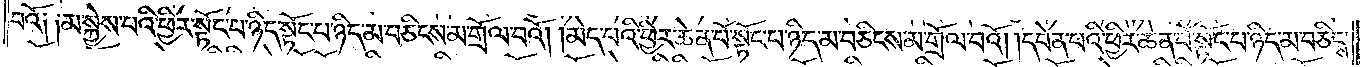བའོ༑ ༑མ་སྐྱེས་པའི་ཕྱིར་སྟོང་པ་ཉིད་སྟོང་པ་ཉིད་མ་བཅིངས་མ་གྲོལ་བའོ། །མེད་པའི་ཕྱིར་ཆེན་པོ་སྟོང་པ་ཉིད་མ་བཅིངས་མ་གྲོལ་བའོ། །དབེན་པའི་ཕྱིར་ཆེན་པོ་སྟོང་པ་ཉིད་མ་བཅིངས་
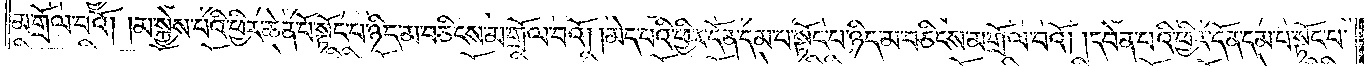མ་གྲོལ་བའོ། །མ་སྐྱེས་པའི་ཕྱིར་ཆེན་པོ་སྟོང་པ་ཉིད་མ་བཅིངས་མ་གྲོལ་བའོ། །མེད་པའི་ཕྱིར་དོན་དམ་པ་སྟོང་པ་ཉིད་མ་བཅིངས་མ་གྲོལ་བའོ། །དབེན་པའི་ཕྱིར་དོན་དམ་པ་སྟོང་པ་
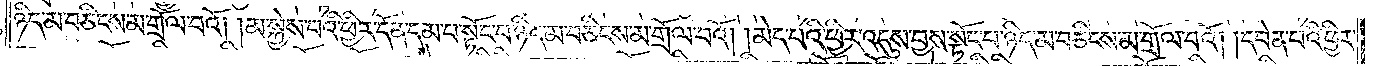ཉིད་མ་བཅིངས་མ་གྲོལ་བའོ། །མ་སྐྱེས་པའི་ཕྱིར་དོན་དམ་པ་སྟོང་པ་ཉིད་མ་བཅིངས་མ་གྲོལ་བའོ། མེད་པའི་ཕྱིར་འདུས་བྱས་སྟོང་པ་ཉིད་མ་བཅིངས་མ་གྲོལ་བའོ། །དབེན་པའི་ཕྱིར་
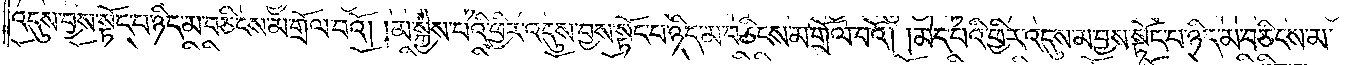འདུས་བྱས་སྟོང་པ་ཉིད་མ་བཅིངས་མ་གྲོལ་བའོ། །མ་སྐྱེས་པའི་ཕྱིར་འདུས་བྱས་སྟོང་པ་ཉིད་མ་བཅིངས་མ་གྲོལ་བའོ། །མེད་པའི་ཕྱིར་འདུས་མ་བྱས་སྟོང་པ་ཉིད་མ་བཅིངས་མ་
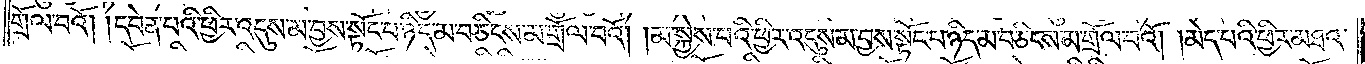གྲོལ་བའོ། །དབེན་པའི་ཕྱིར་འདུས་མ་བྱས་སྟོང་པ་ཉིད་མ་བཅིངས་མ་གྲོལ་བའོ། །མ་སྐྱེས་པའི་ཕྱིར་འདུས་མ་བྱས་སྟོང་པ་ཉིད་མ་བཅིངས་མ་གྲོལ་བའོ། །མེད་པའི་ཕྱིར་མཐའ་
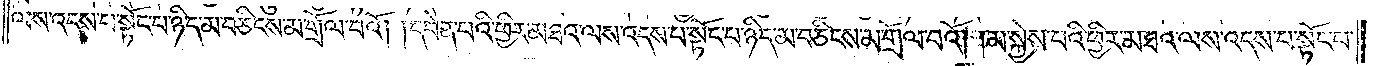ལས་འདས་པ་སྟོང་པ་ཉིད་མ་བཅིངས་མ་གྲོལ་བའོ། །དབེན་པའི་ཕྱིར་མཐའ་ལས་འདས་པ་སྟོང་པ་ཉིད་མ་བཅིངས་མ་གྲོལ་པའོ། །མ་སྐྱེས་པའི་ཕྱིར་མཐའ་ལས་འདས་པ་སྟོང་པ་
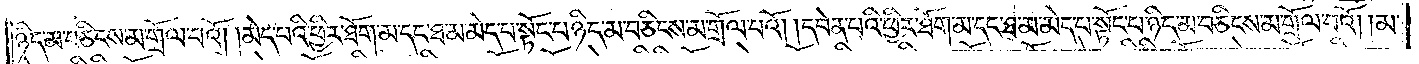ཉིད་མ་བཅིངས་མ་གྲོལ་བའོ། །མེད་པའི་ཕྱིར་ཐོག་མ་དང་ཐ་མ་མེད་པ་སྟོང་པ་ཉིད་མ་བཅིངས་མ་གྲོལ་བའོ། །དབེན་པའི་ཕྱིར་ཐོག་མ་དང་ཐ་མ་མེད་པ་སྟོང་པ་ཉིད་མ་བཅིངས་མ་གྲོལ་བའོ། །མ་
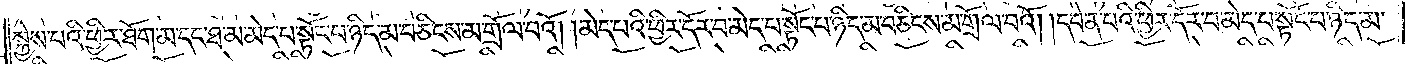སྐྱེས་པའི་ཕྱིར་ཐོག་མ་དང་ཐ་མ་མེད་པ་སྟོང་པ་ཉིད་མ་བཅིངས་མ་གྲོལ་བའོ། །མེད་པའི་ཕྱིར་དོར་བ་མེད་པ་སྟོང་པ་ཉིད་མ་བཅིངས་མ་གྲོལ་བའོ། །དབེན་པའི་ཕྱིར་དོར་བ་མེད་པ་སྟོང་པ་ཉིད་མ་
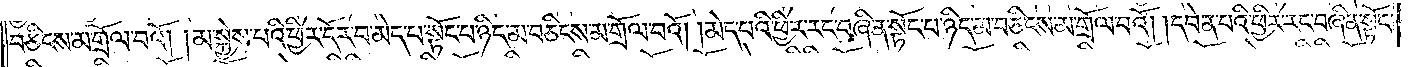བཅིངས་མ་གྲོལ་བའོ། །མ་སྐྱེས་པའི་ཕྱིར་དོར་བ་མེད་པ་སྟོང་པ་ཉིད་མ་བཅིངས་མ་གྲོལ་བའོ། །མེད་པའི་ཕྱིར་རང་བཞིན་སྟོང་པ་ཉིད་མ་བཅིངས་མ་གྲོལ་བའོ། །དབེན་པའི་ཕྱིར་རང་བཞིན་སྟོང་
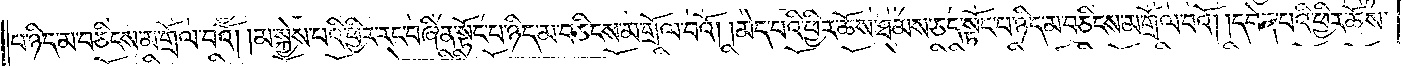པ་ཉིད་མ་བཅིངས་མ་གྲོལ་བའོ། །མ་སྐྱེས་པའི་ཕྱིར་རང་བཞིན་སྟོང་པ་ཉིད་མ་བཅིངས་མ་གྲོལ་བའོ། །མེད་པའི་ཕྱིར་ཆོས་ཐམས་ཅད་སྟོང་པ་ཉིད་མ་བཅིངས་མ་གྲོལ་བའོ། །དབེན་པའི་ཕྱིར་ཆོས་
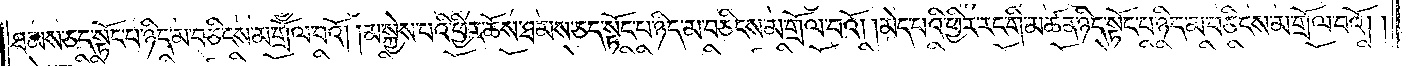ཐམས་ཅད་སྟོང་པ་ཉིད་མ་བཅིངས་མ་གྲོལ་བའོ། །མ་སྐྱེས་པའི་ཕྱིར་ཆོས་ཐམས་ཅད་སྟོང་པ་ཉིད་མ་བཅིངས་མ་གྲོལ་བའོ། །མེད་པའི་ཕྱིར་རང་གི་མཚན་ཉིད་སྟོང་པ་ཉིད་མ་བཅིངས་མ་གྲོལ་བའོ། །
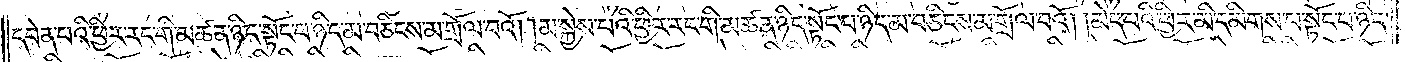དབེན་པའི་ཕྱིར་རང་གི་མཚན་ཉིད་སྟོང་པ་ཉིད་མ་བཅིངས་མ་གྲོལ་བའོ། །མ་སྐྱེས་པའི་ཕྱིར་རང་གི་མཚན་ཉིད་སྟོང་པ་ཉིད་མ་བཅིངས་མ་གྲོལ་བའོ། །མེད་པའི་ཕྱིར་མི་དམིགས་པ་སྟོང་པ་ཉིད་
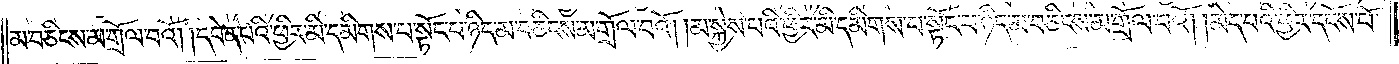མ་བཅིངས་མ་གྲོལ་བའོ། །དབེན་པའི་ཕྱིར་མི་དམིགས་པ་སྟོང་པ་ཉིད་མ་བཅིངས་མ་གྲོལ་བའོ། །མ་སྐྱེས་པའི་ཕྱིར་མི་དམིགས་པ་སྟོང་པ་ཉིད་མ་བཅིངས་མ་གྲོལ་བའོ། །མེད་པའི་ཕྱིར་དངོས་པོ་
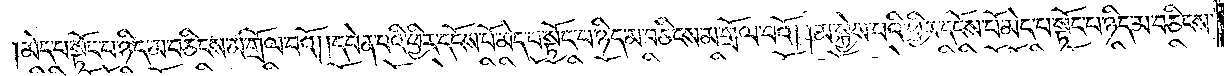མེད་པ་སྟོང་པ་ཉིད་མ་བཅིངས་མ་གྲོལ་བའོ། །དབེན་པའི་ཕྱིར་དངོས་པོ་མེད་པ་སྟོང་པ་ཉིད་མ་བཅིངས་མ་གྲོལ་བའོ། །མ་སྐྱེས་པའི་ཕྱིར་དངོ་ས་པོ་མེད་པ་སྟོང་པ་ཉིད་མ་བཅིངས་
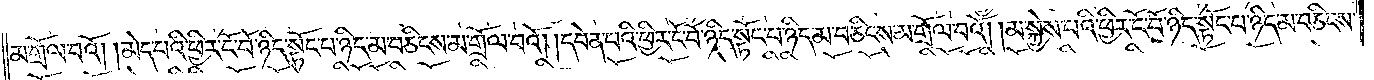མ་གྲོལ་བའོ། །མེད་པའི་ཕྱིར་ངོ་བོ་ཉིད་སྟོང་པ་ཉིད་མ་བཅིངས་མ་གྲོལ་བའོ། །དབེན་པའི་ཕྱིར་ངོ་བོ་ཉིད་སྟོང་པ་ཉིད་མ་བཅིངས་མ་གྲོལ་བའོ། །མ་སྐྱེས་པའི་ཕྱིར་ངོ་བོ་ཉིད་སྟོང་པ་ཉིད་མ་བཅིངས་
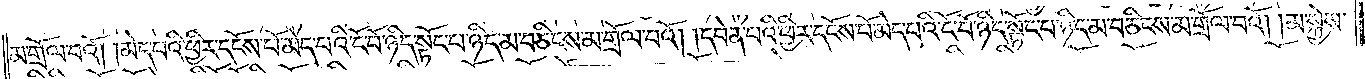མ་གྲོལ་བའོ། །མེད་པའི་ཕྱིར་དངོས་པོ་མེད་པའི་ངོ་བོ་ཉིད་སྟོང་པ་ཉིད་མ་བཅིངས་མ་གྲོལ་བའོ། །དབེན་པའི་ཕྱིར་དངོས་པོ་མེད་པའི་ངོ་བོ་ཉིད་སྟོང་པ་ཉིད་མ་བཅིངས་མ་གྲོལ་བའོ། །མ་སྐྱེས་
